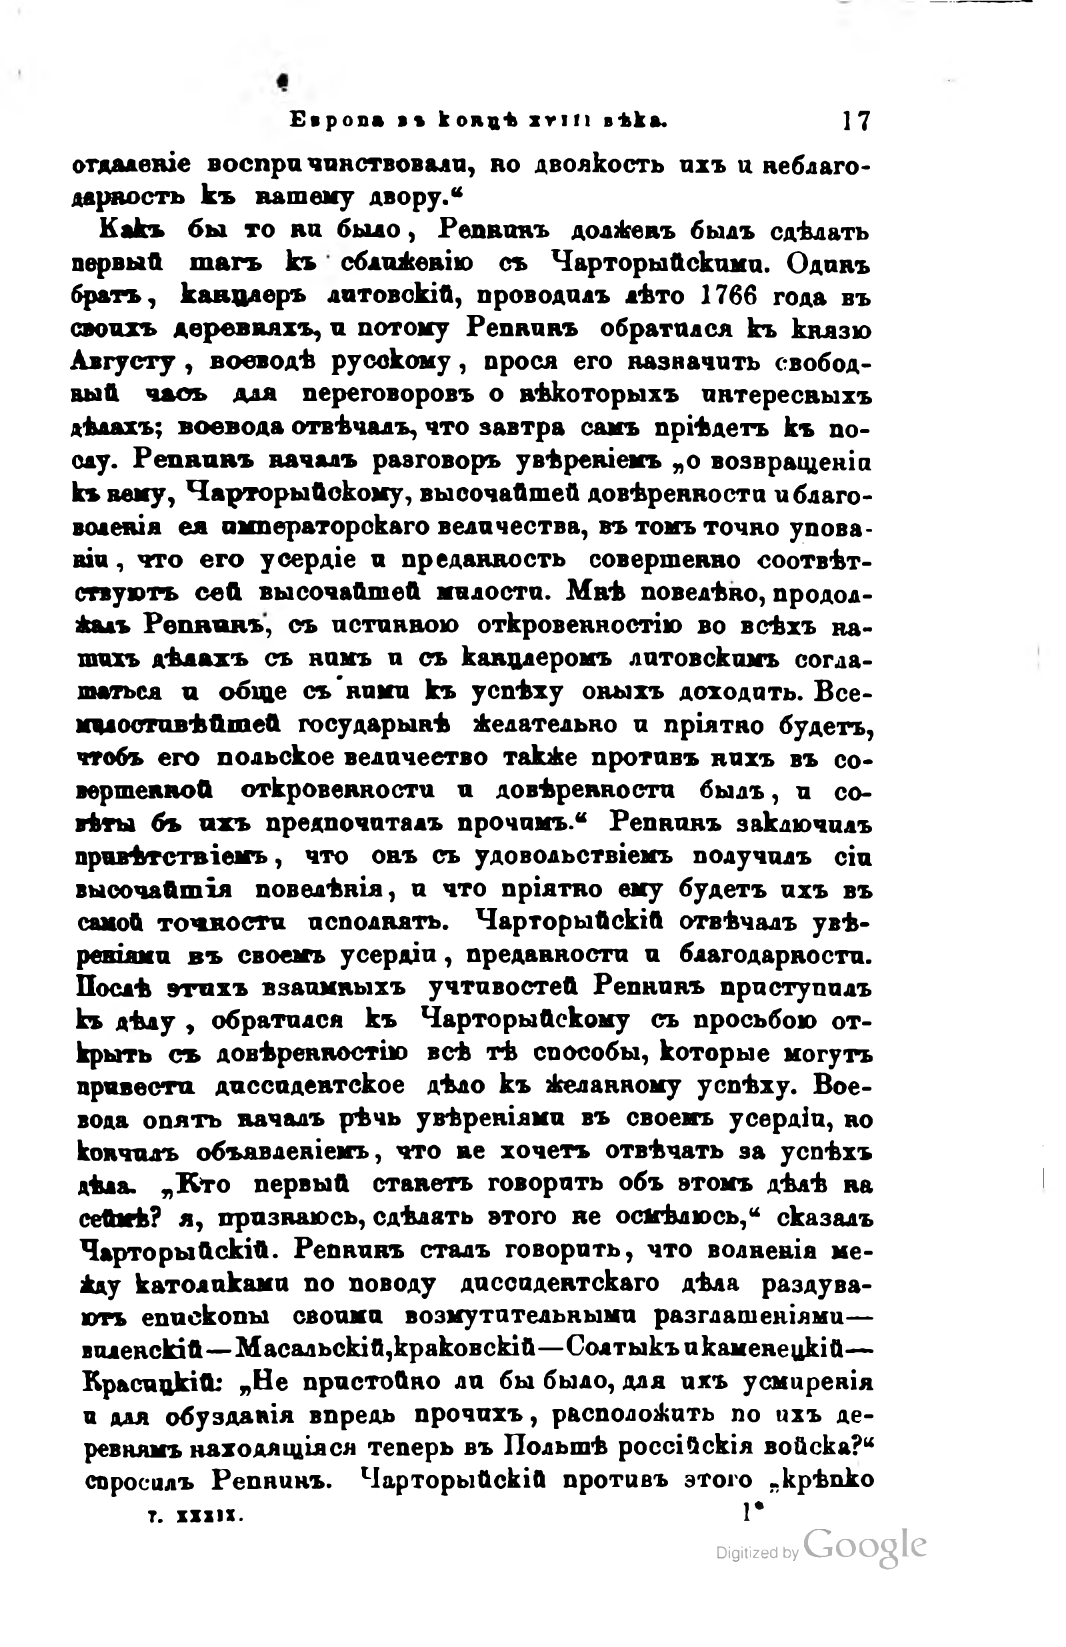Европа въ концѣ XVIII вѣка.              17
отдаленіе воспричинствовали, но двоякость ихъ и неблагодарность къ вашему двору.“
Какъ бы то ни было, Репнинъ долженъ былъ сдѣлать первый шагъ къ сближенію съ Чарторыйскими. Одинъ братъ, канцлеръ литовскій, проводилъ лѣто 1766 года въ своихъ деревняхъ, и потому Репнинъ обратился къ князю Августу, воеводѣ русскому, прося его назначить свободный часъ для переговоровъ о нѣкоторыхъ интересныхъ дѣлахъ; воевода отвѣчалъ, что завтра самъ пріѣдетъ къ послу. Репнинъ началъ разговоръ увѣреніемъ „о возвращеніи къ нему, Чарторыйскому, высочайшей довѣренности и благоволенія ея императорскаго величества, въ томъ точно упованіи, что его усердіе и преданность совершенно соотвѣтствуютъ сей высочайшей милости. Мнѣ повелѣно, продолжалъ Репнинъ, съ истинною откровенностію во всѣхъ нашихъ дѣлахъ съ нимъ и съ канцлеромъ литовскимъ соглашаться и обще съ ними къ успѣху оныхъ доходить. Всемилостивѣйшей государынѣ желательно и пріятно будетъ, чтобъ его польское величество также противъ нихъ въ совершенной откровенности и довѣренности былъ, и совѣты бъ ихъ предпочиталъ прочимъ.“ Репнинъ заключилъ привѣтствіемъ, что онъ съ удовольствіемъ получилъ сіи высочайшія повелѣнія, и что пріятно ему будетъ ихъ въ самой точности исполнять. Чарторыйскій отвѣчалъ увѣреніями въ своемъ усердіи, преданности и благодарности. Послѣ зтихъ взаимныхъ учтивостей Репнинъ приступилъ къ дѣлу, обратился къ Чарторыйскому съ просьбою открыть съ довѣренностію всѣ тѣ способы, которые могутъ привести диссидентское дѣло къ желанному успѣху. Воевода опять началъ рѣчь увѣреніями въ своемъ усердіи, но кончилъ объявленіемъ, что не хочетъ отвѣчать за успѣхъ дѣла. „Кто первый станетъ говорить объ этомъ дѣлѣ на сеймѣ? я, признаюсь, сдѣлать этого не осмѣлюсь,“ сказалъ Чарторыйскій. Репнинъ сталъ говорить, что волненія между католиками по поводу диссидентскаго дѣла раздуваютъ епископы своими возмутительными разглашеніями — виленскій — Масальскій, краковскій — Солтыкъ и каменецкій — Красицкій: „Не пристойно ли бы было, для ихъ усмиренія и для обузданія впредь прочихъ, расположить по ихъ деревнямъ находящіяся теперь въ Польшѣ россійскія войска?“ спросилъ Репнинъ. Чарторыйскій противъ этого „крѣпко
Т. XXXIX.                                              1*
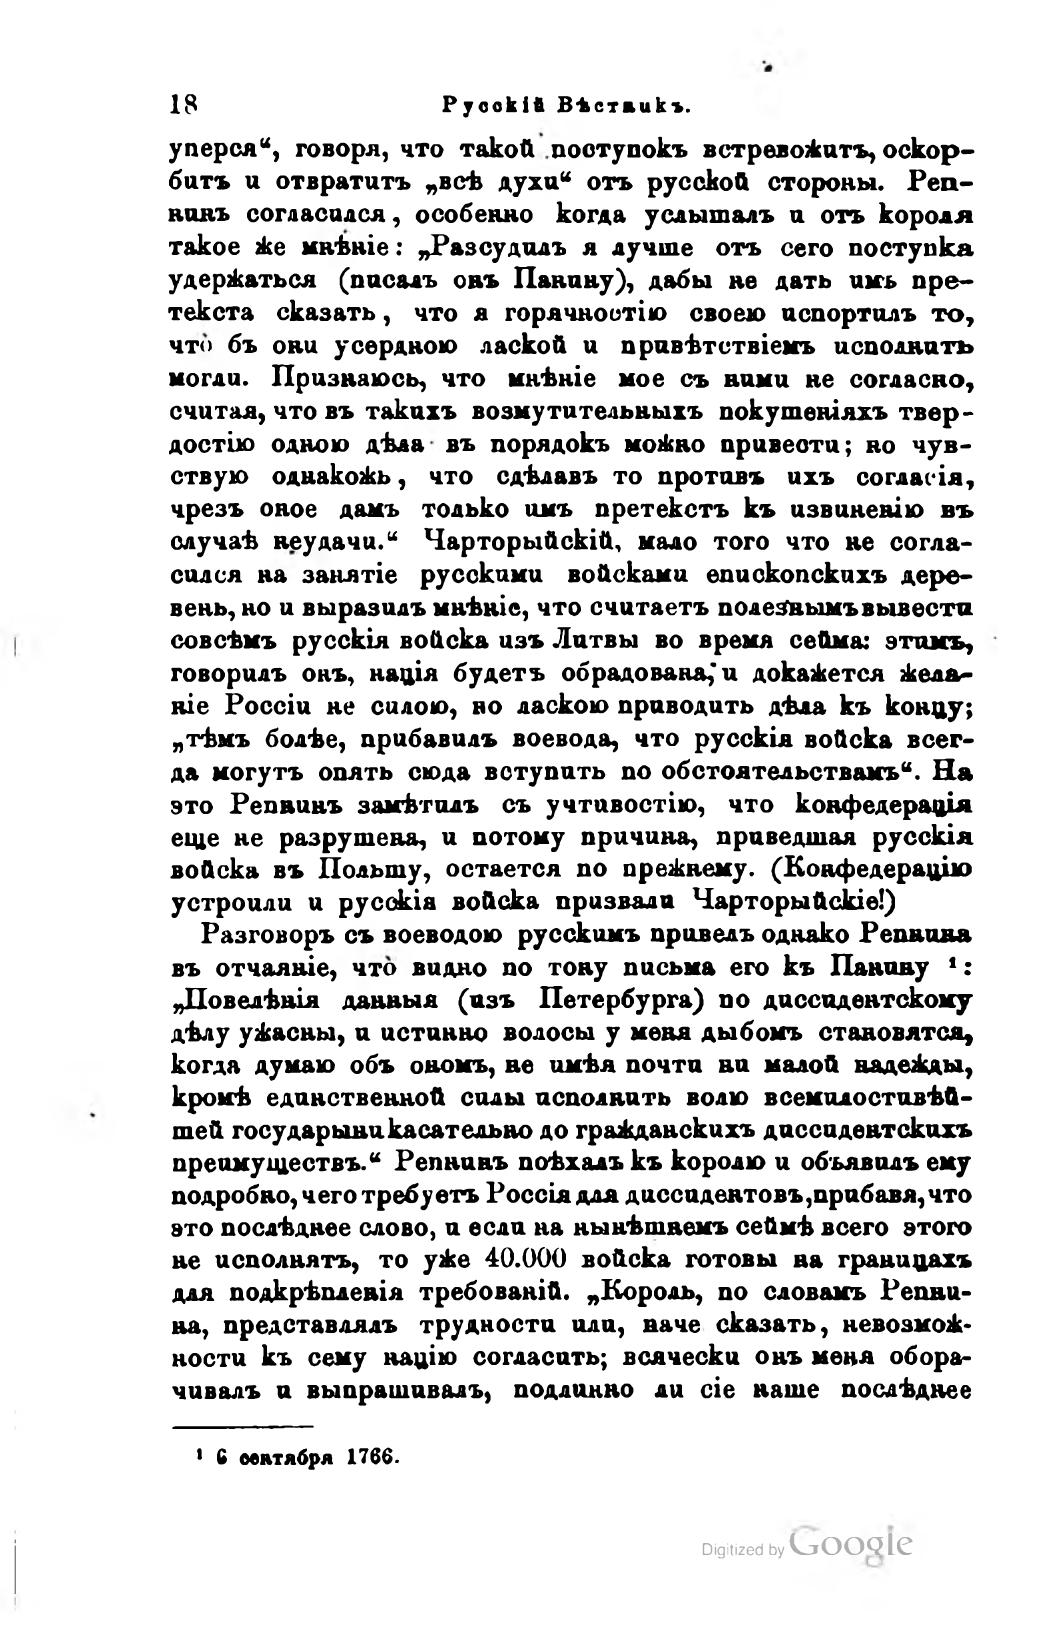18                    Русскій Вѣстникъ.
уперся“, говоря, что такой поступокъ встревожитъ, оскорбитъ и отвратитъ „всѣ духи“ отъ русской стороны. Репнинъ согласился, особенно когда услышалъ и отъ короля такое же мнѣніе: „Разсудилъ я лучше отъ сего поступка удержаться (писалъ онъ Панину), дабы не дать имъ претекста сказать, что я горячностію своею испортилъ то, что бъ они усердною лаской и привѣтствіемъ исполнить могли. Признаюсь, что мнѣніе мое съ ними не согласно, считая, что въ такихъ возмутительныхъ покушеніяхъ твердостію одною дѣла въ порядокъ можно привести; но чувствую однакожь, что сдѣлавъ то противъ ихъ согласія, чрезъ оное дамъ только имъ претекстъ къ извиненію въ случаѣ неудачи.“ Чарторыйскій, мало того что не согласился на занятіе русскими войсками епископскихъ деревень, но и выразилъ мнѣніе, что считаетъ полезнымъ вывести совсѣмъ русскія войска изъ Литвы во время сейма: этимъ, говорилъ онъ, нація будетъ обрадована, и докажется желаніе Россіи не силою, но ласкою приводить дѣла къ концу; „тѣмъ болѣе, прибавилъ воевода, что русскія войска всегда могутъ опять сюда вступить по обстоятельствамъ“. На это Репнинъ замѣтилъ съ учтивостію, что конфедерація еще не разрушена, и потому причина, приведшая русскія войска въ Польшу, остается по прежнему. (Конфедерацію устроили и русскія войска призвали Чарторыйскіе!)
Разговоръ съ воеводою русскимъ привелъ однако Репнина въ отчаяніе, что видно по тону письма его къ Панину: „Повелѣнія данныя (изъ Петербурга) по диссидентскому дѣлу ужасны, и истинно волосы у меня дыбомъ становятся, когда думаю объ ономъ, не имѣя почти ни малой надежды, кромѣ единственной силы исполнить волю всемилостивѣйшей государыни касательно до гражданскихъ диссидентскихъ преимуществъ.“ Репнинъ поѣхалъ къ королю и объявилъ ему подробно, чего требуетъ Россія для диссидентовъ, прибавя, что это послѣднее слово, и если на нынѣшнемъ сеймѣ всего этого не исполнятъ, то уже 40.000 войска готовы на границахъ для подкрѣпленія требованій. „Король, по словамъ Репнина, представлялъ трудности или, наче сказать, невозможности къ сему націю согласить; всячески онъ меня оборачивалъ и выпрашивалъ, подлинно ли сіе наше послѣднее
—
1 6 сентября 1766.
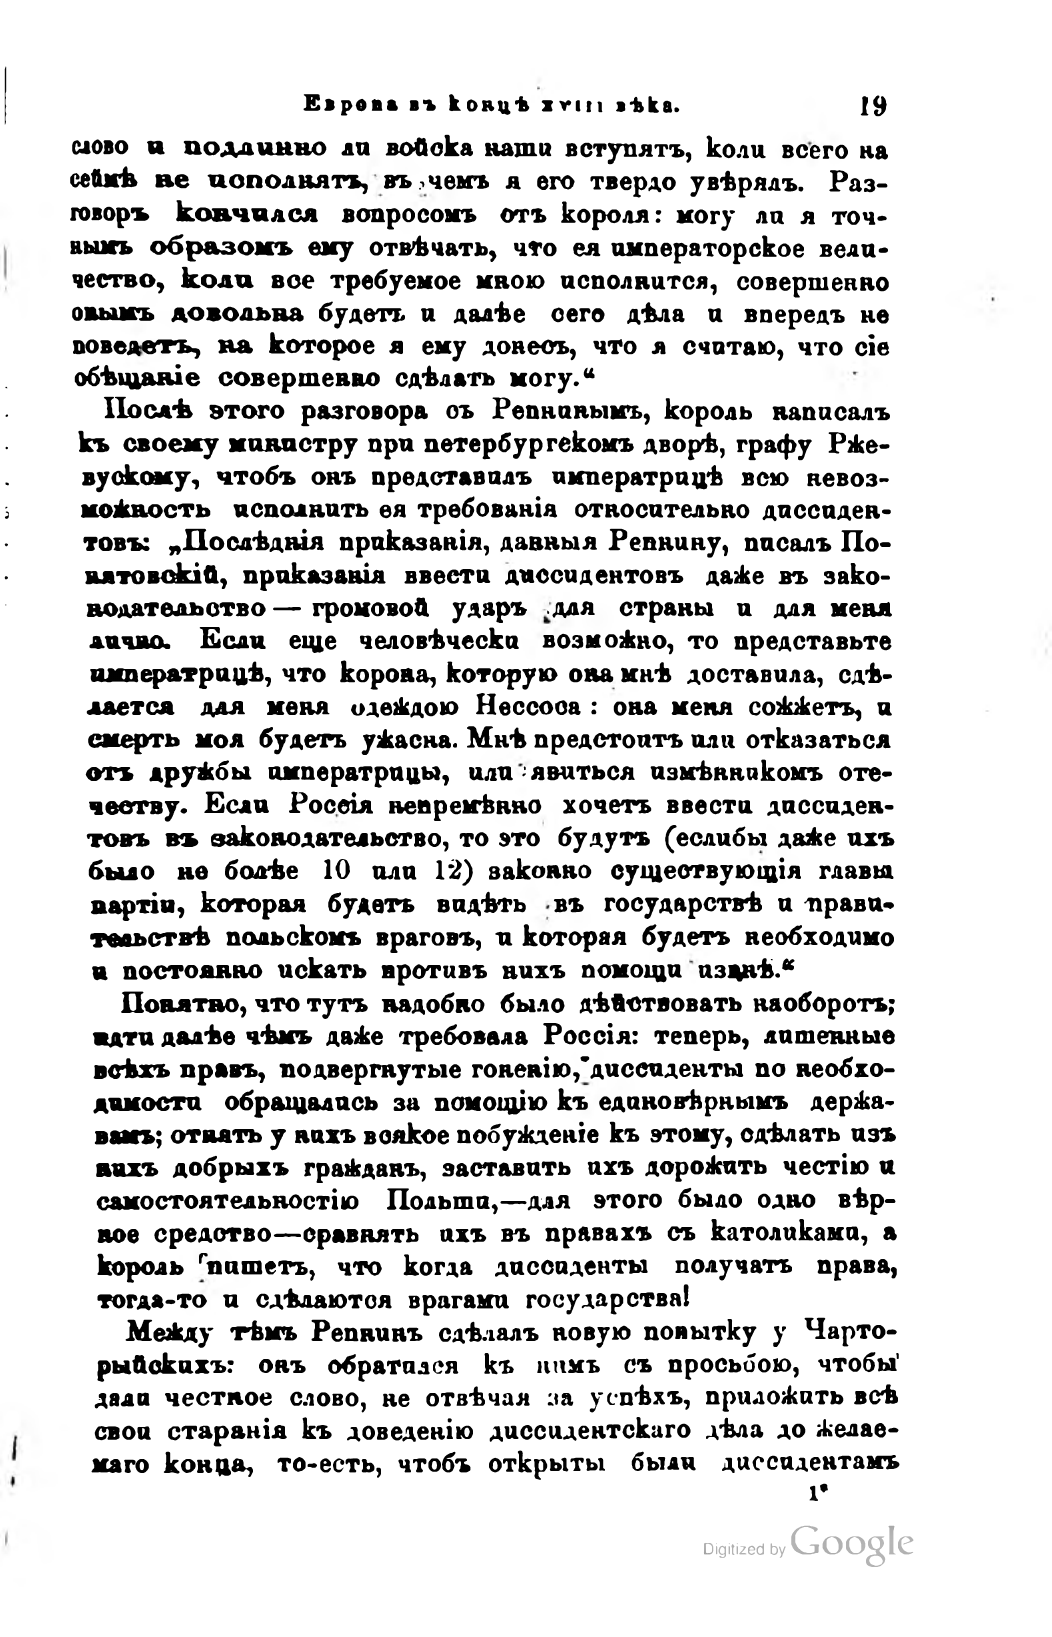Европа въ концѣ XVIII вѣка.               19
слово и подлинно ли войска наши вступятъ, коли всего на сеймѣ не исполнятъ, въ,чемъ я его твердо увѣрялъ. Разговоръ кончился вопросомъ отъ короля: могу ли я точнымъ образомъ ему отвѣчать, что ея императорское величество, коли все требуемое мною исполнится, совершенно онымъ довольна будетъ и далѣе сего дѣла и впередъ не поведетъ, на которое я ему донесъ, что я считаю, что сіе обѣщаніе совершенно сдѣлать могу.“
Послѣ этого разговора съ Репнинымъ, король написалъ къ своему министру при петербургскомъ дворѣ, графу Ржевускому, чтобъ онъ представилъ императрицѣ всю невозможность исполнить ея требованія относительно диссидентовъ: „Послѣднія приказанія, данныя Репнину, писалъ Понятовскій, приказанія ввести диссидентовъ даже въ законодательство — громовой ударъ для страны и для меня лично. Если еще человѣчески возможно, то представьте императрицѣ, что корона, которую она мнѣ доставила, сдѣлается для меня одеждою Нессоса: она меня сожжетъ, и смерть моя будетъ ужасна. Мнѣ предстоитъ или отказаться отъ дружбы императрицы, или явиться измѣнникомъ отечеству. Если Россія непремѣнно хочетъ ввести диссидентовъ въ законодательство, то это будутъ (еслибы даже ихъ было не болѣе 10 или 12) законно существующія главы партіи, которая будетъ видѣть въ государствѣ и правительствѣ польскомъ враговъ, и которая будетъ необходимо и постоянно искать противъ нихъ помощи извнѣ.“
Понятно, что тутъ надобно было дѣйствовать наоборотъ; идти далѣе чѣмъ даже требовала Россія: теперь, лишенные всѣхъ правъ, подвергнутые гоненію, диссиденты по необходимости обращались за помощію къ единовѣрнымъ державамъ; отнять у нихъ всякое побужденіе къ этому, сдѣлать изъ нихъ добрыхъ гражданъ, заставить ихъ дорожить честію и самостоятельностію Польши, — для этого было одно вѣрное средство — сравнять ихъ въ правахъ съ католиками, а король пишетъ, что когда диссиденты получатъ права, тогда-то и сдѣлаются врагами государства!
Между тѣмъ Репнинъ сдѣлалъ новую попытку у Чарторыйскихъ: онъ обратился къ нимъ съ просьбою, чтобы дали честное слово, не отвѣчая за успѣхъ, приложить всѣ свои старанія къ доведенію диссидентскаго дѣла до желаемаго конца, то-есть, чтобъ открыты были диссидентамъ
1*
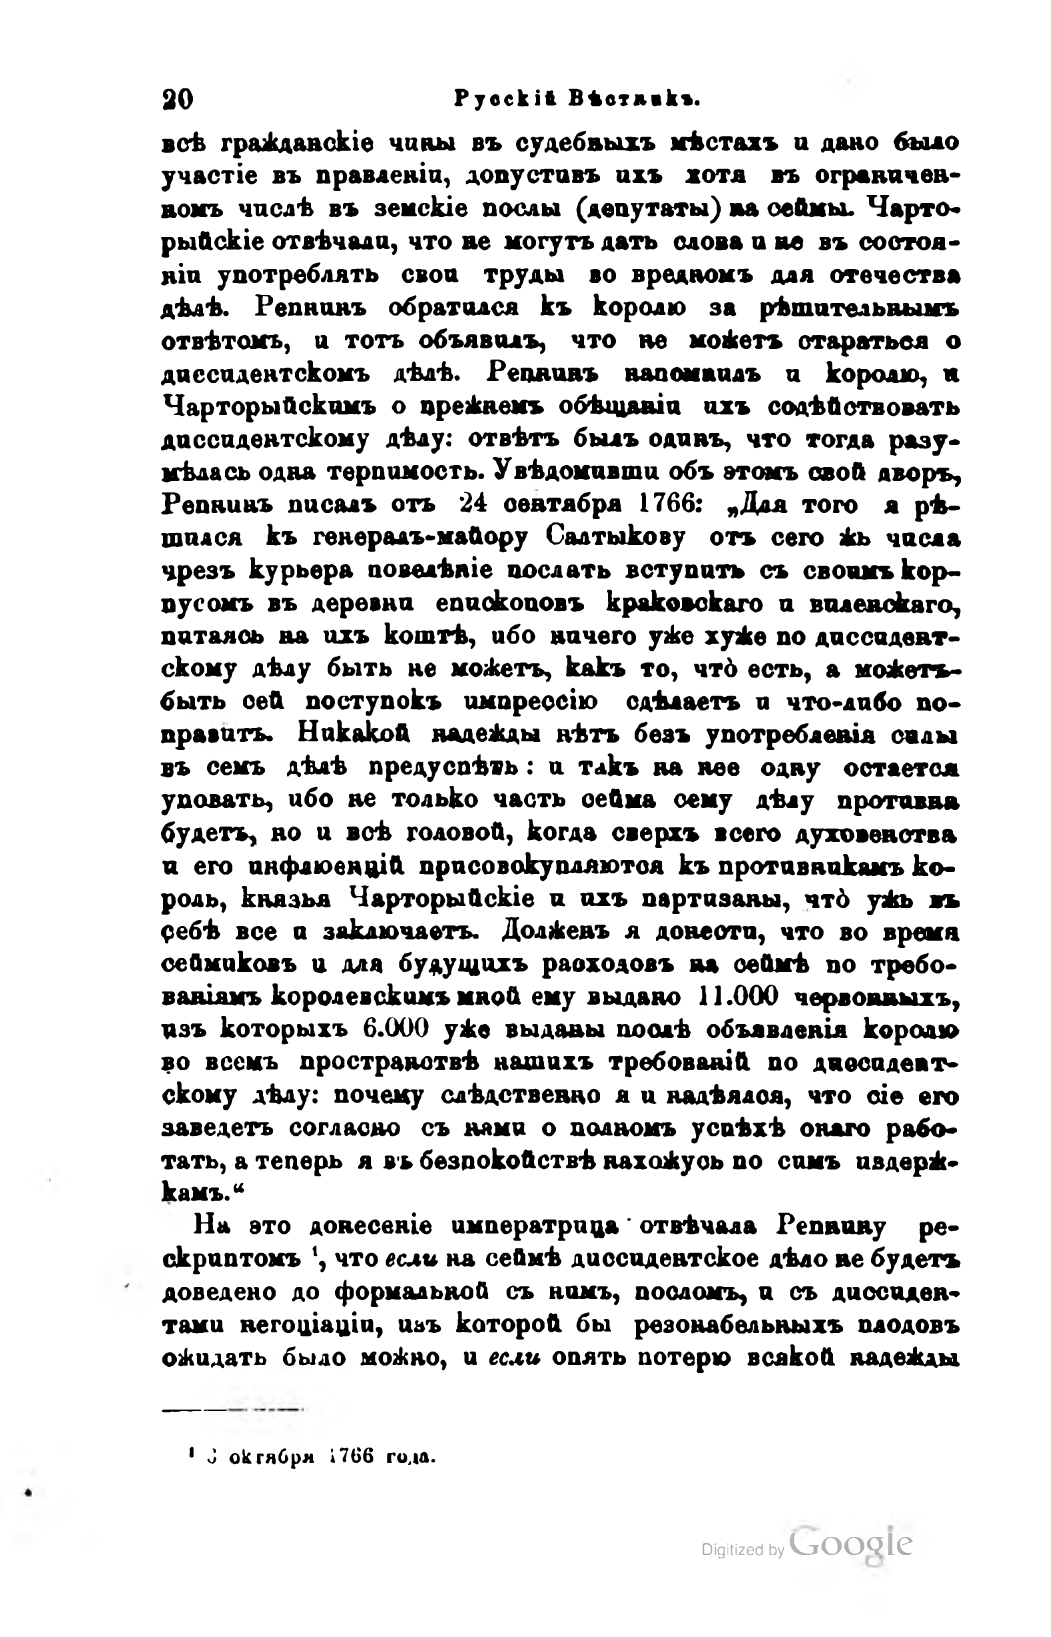20                       Русскій Вѣстникъ.
всѣ гражданскіе чины въ судебныхъ мѣстахъ и дано было участіе въ правленіи, допустивъ ихъ хотя въ ограниченномъ числѣ въ земскіе послы (депутаты) на сеймы. Чарторыйскіе отвѣчали, что не могутъ дать слова и не въ состояніи употреблять свои труды во вредномъ для отечества дѣлѣ. Репнинъ обратился къ королю за рѣшительным отвѣтомъ, и тотъ объявилъ, что не можетъ стараться о диссидентскомъ дѣлѣ. Репнинъ напомнилъ и королю, и Чарторыйскимъ о прежнемъ обѣщаніи ихъ содѣйствовать диссидентскому дѣлу: отвѣтъ былъ одинъ, что тогда разумѣлась одна терпимость. Увѣдомивши объ этомъ свой дворъ,
Репнинъ писалъ отъ 24 сентября 1766: „Для того я рѣшился къ генералъ-майору Салтыкову отъ сего жъ числа чрезъ курьера повелѣніе послать вступить съ своимъ корпусомъ въ деревни епископовъ краковскаго и виленскаго, питаясь на ихъ коштѣ, ибо ничего уже хуже по диссидентскому дѣлу быть не можетъ, какъ то, что есть, а можетъ-быть сей поступокъ импрессію сдѣлаетъ и что-либо поправитъ. Никакой надежды нѣтъ безъ употребленія силы въ семъ дѣлѣ предуспѣть: и такъ на нее одну остается уповать, ибо не только часть сейма сему дѣлу противна будетъ, но и всѣ головой, когда сверхъ всего духовенства и его инфлюенцій присовокупляются къ противникамъ король, князья Чарторыйскіе и ихъ партизаны, что ужъ въ себѣ все и заключаетъ. Долженъ я донести, что во время сеймиковъ и для будущихъ расходовъ на сеймѣ по требованіямъ королевскимъ мной ему выдано 11.000 червонныхъ, изъ которыхъ 6.000 уже выданы послѣ объявленія королю во всемъ пространствѣ нашихъ требованій по диссидентскому дѣлу: почему слѣдственно я и надѣялся, что сіе его заведетъ согласно съ нами о полномъ успѣхѣ онаго работать, а теперь я въ безпокойствѣ нахожусь по симъ издержкамъ.“
На это донесеніе императрица отвѣчала Репнину рескриптомъ, что если на сеймѣ диссидентское дѣло не будетъ доведено до формальной съ нимъ, посломъ, и съ диссидентами негоціаціи, изъ которой бы резонабельныхъ плодовъ ожидать было можно, и если опять потерю всякой надежды
—
1 3 октября 1766 года.